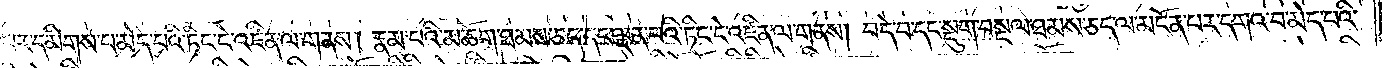པར་དམིགས་པ་མེད་པའི་ཏིང་ངེ་འཛིན་ལ་གནས། རྣམ་པའི་མཆོག་ཐམས་ཅད་དང་ལྡན་པའི་ཏིང་ངེ་འཛིན་ལ་གནས། བདེ་བ་དང་སྡུག་བསྔལ་ཐམས་ཅད་ལ་མངོན་པར་དགའ་བ་མེད་པའི་
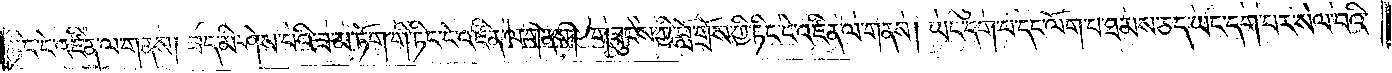ཏིང་ངེ་འཛིན་ལ་གནས། ཟད་མི་ཤེས་པའི་ཟ་མ་ཏོག་གི་ཏིང་ངེ་འཛིན་པ་ལ་གནས། གཟུངས་ཀྱི་བློ་གྲོས་ཀྱི་ཏིང་ངེ་འཛིན་ལ་གནས། ཡང་དག་པ་དང་ལོག་པ་ཐམས་ཅད་ཡང་དག་པར་སེལ་བའི་
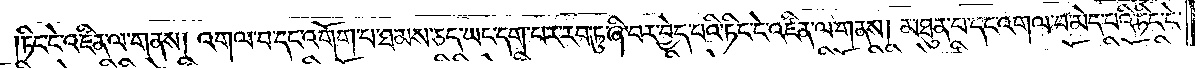ཏིང་ངེ་འཛིན་ལ་གནས། འགལ་བ་དང་འགོག་པ་ཐམས་ཅད་ཡང་དག་པར་རབ་ཏུ་ཞི་བར་བྱེད་པའི་ཏིང་ངེ་འཛིན་ལ་གནས། མཐུན་པ་དང་འགལ་བ་མེད་པའི་ཏིང་ངེ་
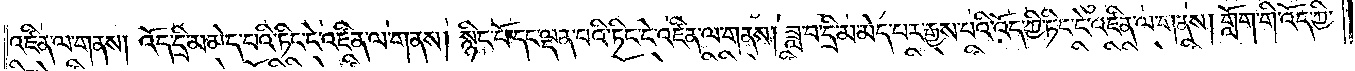འཛིན་ལ་གནས། འོད་དྲི་མ་མེད་བའི་ཏིང་ངེ་འཛིན་ལ་གནས། སྙིང་པོ་དང་ལྡན་པའི་ཏིང་ངེ་འཛིན་ལ་གནས། ཟླ་བ་དྲི་མ་མེད་པར་རྒྱས་པའི་འོད་ཀྱི་ཏིང་ངེ་འཛིན་ལ་གནས། གློག་གི་འོད་ཀྱི་
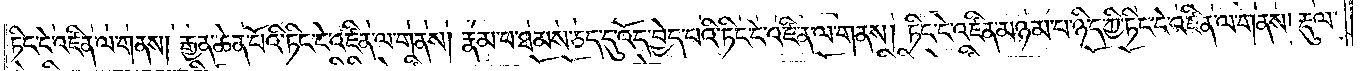ཏིང་ངེ་འཛིན་ལ་གནས། རྒྱན་ཆེན་པོའི་ཏིང་ངེ་འཛིན་ལ་གནས། རྣམ་པ་ཐམས་ཅད་དུ་འོད་བྱེད་པའི་ཏིང་ངེ་འཛིན་ལ་གནས། ཏིང་ངེ་འཛིན་མཉམ་པ་ཉིད་ཀྱི་ཏིང་ངེ་འཛིན་ལ་གནས། རྡུལ་
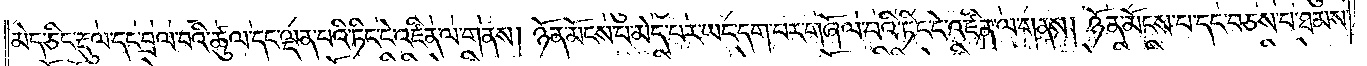མེད་ཅིང་རྡུལ་དང་བྲལ་བའི་ཚུལ་དང་ལྡན་པའི་ཏིང་ངེ་འཛིན་ལ་གནས། ཉོན་མོངས་པ་མེད་པར་ཡང་དག་པར་གཞོལ་བའི་ཏིང་ངེ་འཛིན་ལ་གནས། ཉོན་མོངས་པ་དང་བཅས་པ་ཐམས་
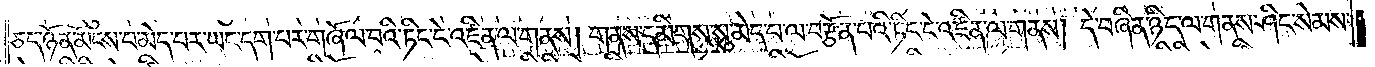ཅད་ཉོན་མོངས་པ་མེད་པར་ཡང་དག་པར་གཞོལ་བའི་ཏིང་ངེ་འཛིན་ལ་གནས། གནས་དམིགས་སུ་མེད་པ་ལ་བརྩོན་པའི་ཏིང་ངེ་འཛིན་ལ་གནས། དེ་བཞིན་ཉིད་ལ་གནས་ཤིང་སེམས་
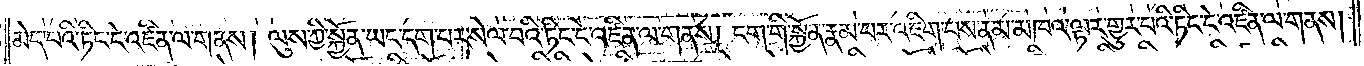མེད་པའི་ཏིང་ངེ་འཛིན་ལ་གནས། ལུས་ཀྱི་སྐྱོན་ཡང་དག་པར་སེལ་བའི་ཏིང་ངེ་འཛིན་ལ་གནས། ངག་གི་སྐྱོན་རྣམ་པར་འཇིག་པས་ནམ་མཁའ་ལྟར་གྱུར་པའི་ཏིང་ངེ་འཛིན་ལ་གནས།
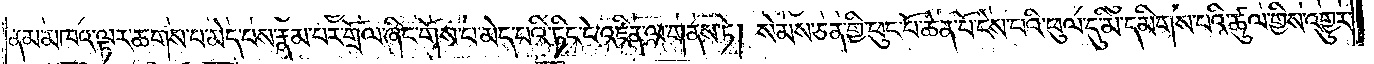ནམ་མཁའ་ལྟར་ཆགས་པ་མེད་པས་རྣམ་པར་གྲོལ་ཞིང་གོས་པ་མེད་པའི་ཏིང་ངེ་འཛིན་ལ་གནས་ཏེ། སེམས་ཅན་གྱི་ཕུལ་པོ་ཆེན་པོ་ངེས་པའི་ཕུལ་དུ་མི་དམིགས་པའི་ཚུལ་གྱིས་འགྱུར་
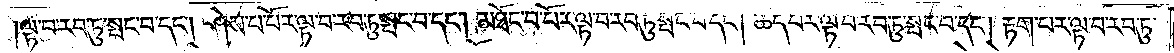ལྟ་བ་རབ་ཏུ་སྤང་བ་དང༌། ཤེས་པ་པོར་ལྟ་བ་རབ་ཏུ་སྤང་བ་དང༌། མཐོང་བ་པོར་ལྟ་བ་རབ་ཏུ་སྤང་བ་དང༌། ཆད་པར་ལྟ་བ་རབ་ཏུ་སྤང་བ་དང༌། རྟག་པར་ལྟ་བ་རབ་ཏུ་
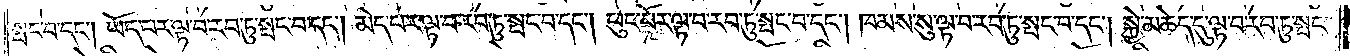སྤང་བ་དང༌། ཡོད་པར་ལྟ་བ་རབ་ཏུ་སྤང་བ་དང༌། མེད་པར་ལྟ་བ་རབ་ཏུ་སྤང་བ་དང༌། ཕུང་པོར་ལྟ་བ་རབ་ཏུ་སྤང་བ་དང༌། ཁམས་སུ་ལྟ་བ་རབ་ཏུ་སྤང་བ་དང༌། སྐྱེ་མཆེད་དུ་ལྟ་བ་རབ་ཏུ་སྤང་
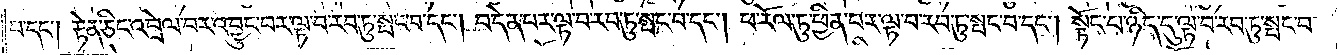བ་དང༌། རྟེན་ཅིང་འབྲེལ་པར་འབྱུང་བར་ལྟ་བ་རབ་ཏུ་སྤང་བ་དང༌། བདེན་པར་ལྟ་བ་རབ་ཏུ་སྤང་བ་དང༌། ཕ་རོལ་ཏུ་ཕྱིན་པར་ལྟ་བ་རབ་ཏུ་སྤང་བ་དང༌། སྟོང་པ་ཉིད་དུ་ལྟ་བ་རབ་ཏུ་སྤང་བ་
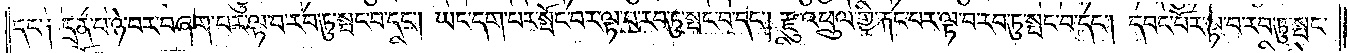དང༌། དྲན་པ་ཉེ་བར་བཞག་པར་ལྟ་བ་རབ་ཏུ་སྤང་བ་དང༌། ཡང་དག་པར་སྤོང་བར་ལྟ་བ་རབ་ཏུ་སྤང་བ་དང༌། རྫུ་འཕྲུལ་གྱི་རྐང་པར་ལྟ་བ་རབ་ཏུ་སྤང་བ་དང༌། དབང་པོར་ལྟ་བ་རབ་ཏུ་སྤང་
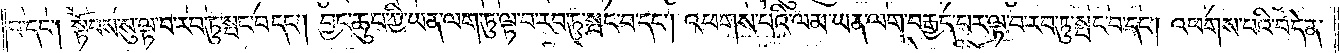བ་དང༌། སྟོབས་སུ་ལྟ་བ་རབ་ཏུ་སྤང་བ་དང༌། བྱང་ཆུབ་ཀྱི་ཡན་ལག་ཏུ་ལྟ་བ་རབ་ཏུ་སྤང་བ་དང༌། འཕགས་པའི་ལམ་ཡན་ལག་བརྒྱད་པར་ལྟ་བ་རབ་ཏུ་སྤང་བ་དང༌། འཕགས་པའི་བདེན་
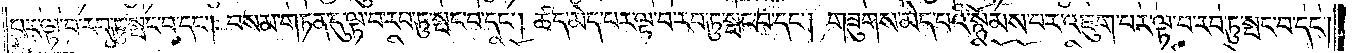པར་ལྟ་བ་རབ་ཏུ་སྤང་བ་དང༌། བསམ་གཏན་དུ་ལྟ་བ་རབ་ཏུ་སྤང་བ་དང༌། ཚད་མེད་པར་ལྟ་བ་རབ་ཏུ་སྤང་བ་དང༌། གཟུགས་མེད་པའི་སྙོམས་པར་འཇུག་པར་ལྟ་བ་རབ་ཏུ་སྤང་བ་དང༌།
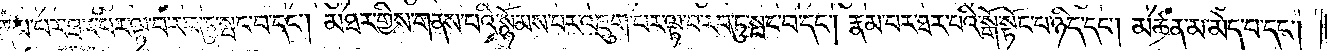རྣམ་པར་ཐར་བར་ལྟ་བ་རབ་ཏུ་སྤང་བ་དང༌། མཐར་གྱིས་གནས་པའི་སྙོམས་པར་འཇུག་པར་ལྟ་བ་རབ་ཏུ་སྤང་བ་དང༌། རྣམ་པར་ཐར་པའི་སྒོ་སྟོང་པ་ཉིད་དང༌། མཚན་མ་མེད་པ་དང༌།
